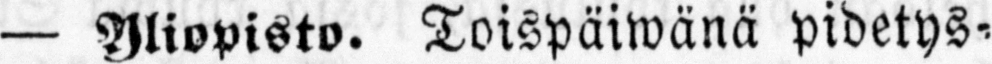— Yliopisto. Toispäiwänä pidetys-
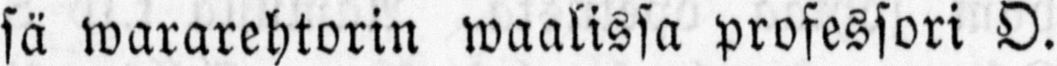sä wararehtorin waalissa professori O.
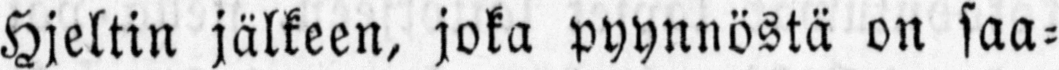Hjeltin jälkeen, joka pyynnöstä on saa-
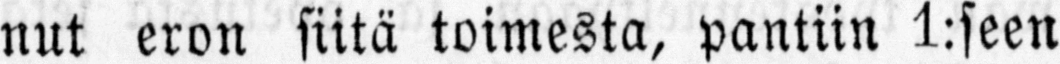nut eron siitä toimesta, pantiin 1:seen
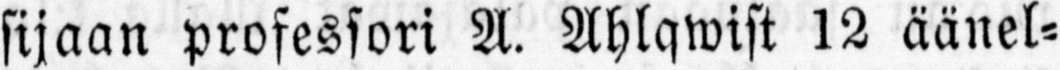sijaan professori A. Ahlqwist 12 äänel-
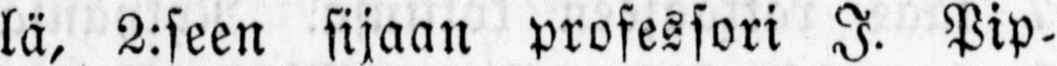lä, 2:seen sijaan professori I. Pip-
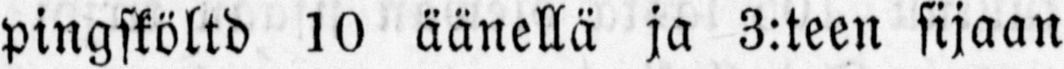pingsköltd 10 äänellä ja 3:teen sijaan
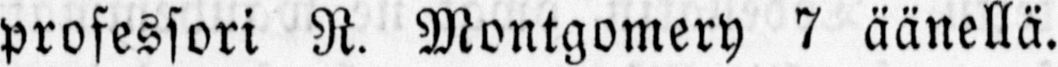professori R. Montgomery 7 äänellä.
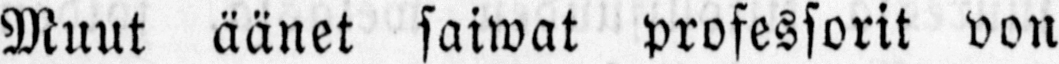Muut äänet saiwat professorit von
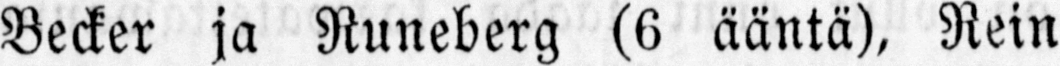Becker ja Runeberg (6 ääntä), Rein
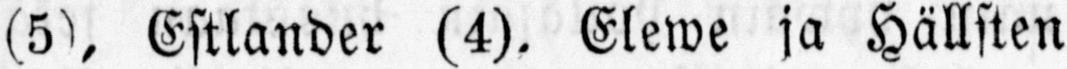(5), Estlander (4), Elewe ja Hällsten
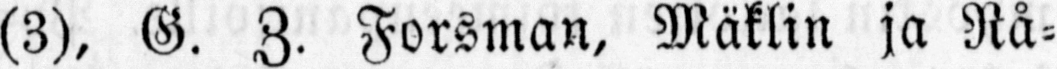(3), G. Z. Forsman, Mäklin ja Rå-
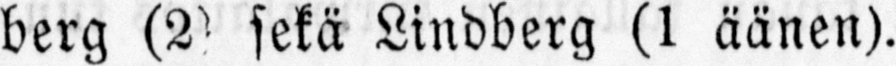berg (2) sekä Lindberg (1 äänen).
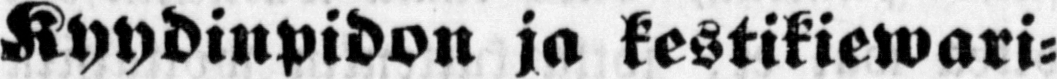Kyydinpidon ja kestikiewari-
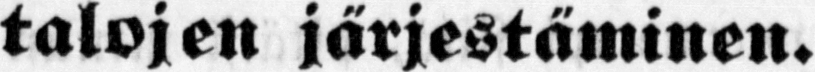talojen järjestäminen.
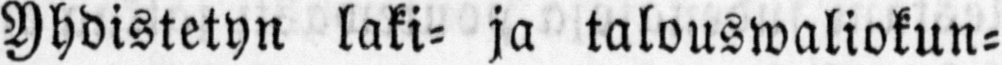yhdistetyn laki- ja talouswaliokun-
